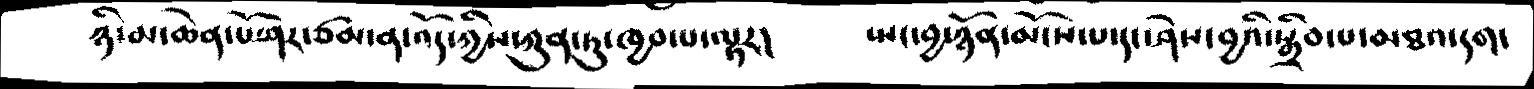ཉི་མ་ཆེན་པོ་ཤར་ཙམ་ན་འོད་ཀྱིས་ཀུན་ཏུ་ཁྱབ་པ་ལྟར།    སྤང་བྱ་ཉོན་མོངས་པ་དང་ཤེས་བྱའི་སྒྲིབ་པ་མཐའ་དག་
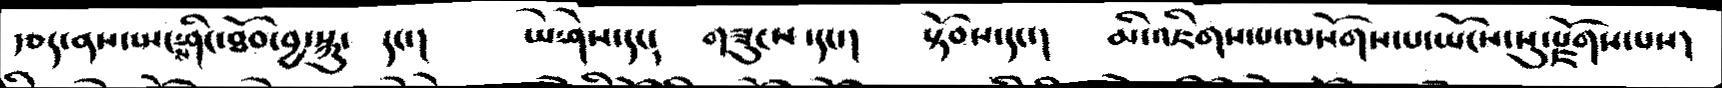རྩད་ནས་སྤངས་ཤིང་ཐོབ་བྱ་སྐུ་  དང་།   ཡེ་ཤེས་དང་   གཟུངས་དང་།    སྟོབས་དང་།    མི་འཇིགས་པ་ལསོགས་པ་ཡོངས་སུ་རྫོགས་པས།
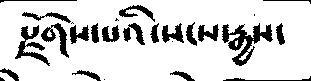རྫོགས་པའི་སངས་རྒྱས་
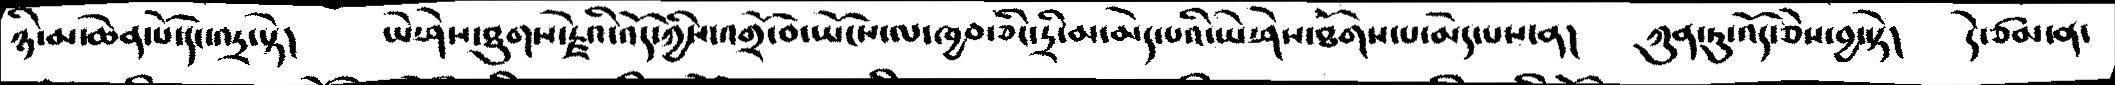ཉི་མ་ཆེན་པོ་དང་འདྲ་སྟེ།    ཡེ་ཤེས་ཐུགས་རྗེའི་འོད་ཀྱིས་འགྲོ་བ་ཡོངས་ལ་ཁྱབ་ཅིང་དྲི་མ་མེད་པའི་ཡེ་ཤེས་ཐོགས་པ་མེད་པས་ན།   ཀུན་ཏུ་འོད་ཅེས་བྱ་སྟེ།   དེ་ཙམ་ན་
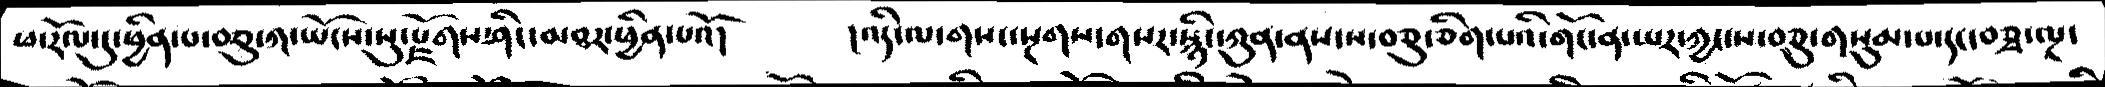ཕ་རོལ་དུ་ཕྱིན་པ་བཅུ་ཀ་ཡོངས་སུ་རྫོགས་ཤིང་མཐར་ཕྱིན་པའོ།     །འདི་ལ་གསང་སྔགས་གསར་སྙིང་ཀུན་ནས་ས་བཅུ་ཅིག་པའི་གོང་ན་ཡར་ཀྱང་ས་བཅུ་གསུམ་པ་དང་བཅྭ་ལྔ་
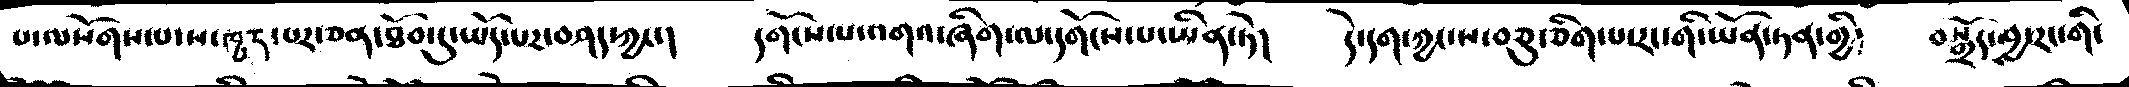པ་ལསོགས་པ་ས་ཁྱད་པར་ཅན་ཐོབ་དུ་ཡོད་པར་བཤད་ཀྱང་།    དགོངས་པ་འགའ་ཞིག་ལ་དགོངས་པ་ཡིན་ཏེ།    དེ་དག་ཀྱང་ས་བཅུ་ཅིག་པ་རང་གི་ཡོན་ཏན་གྱི་   བསྒྲོད་བྱ་རང་གི་
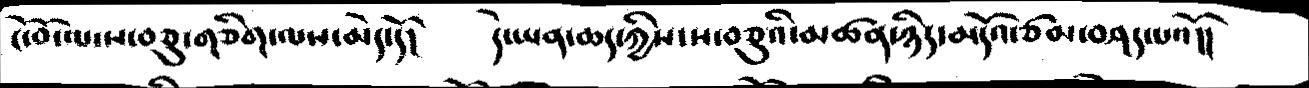ངོ་བོ་ལ་ས་བཅུ་གཅིག་ལས་མེད་དོ།    དེ་ཡན་ཆད་ཀྱིས་ས་བཅུའི་མཚན་ཉིད་མདོའ་ཙམ་བཤད་པའོ།།
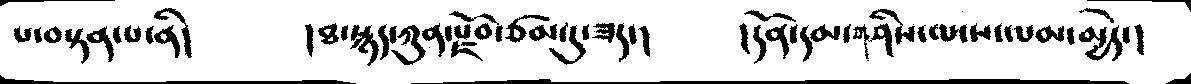པ་བསྟན་པ་ནི།    །ཐ་སྙད་ཀུན་རྫོབ་ཙམ་དུ་ཟད་།    །དོན་དམ་གཤིས་ལ་ས་ལམ་མྱེད་།
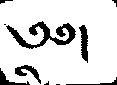༄༅།
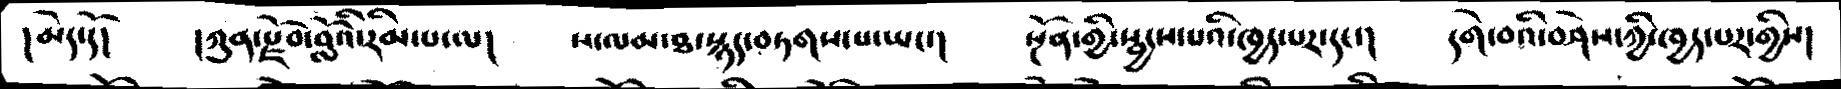།མེད་དོ།    །ཀུན་རྫོབ་བློའི་རིམ་པ་ལ།   ས་ལམ་ཐ་སྙད་བཏགས་པ་ཡང་།   སྔོན་གྱི་སྦྱངས་པའི་ཁྱད་པར་དང་།    དགེ་བའི་བཤེས་ཀྱི་ཁྱད་པར་གྱིས།
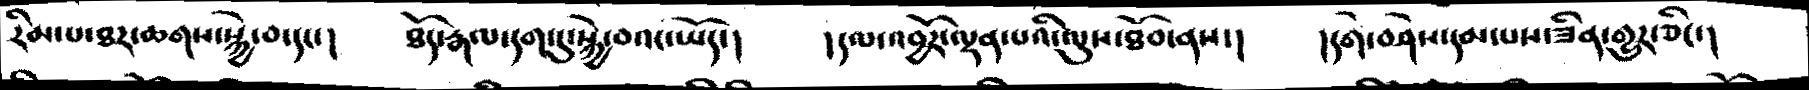རིམ་པ་ཐར་ཆགས་སྐྱེ་བ་དང་།    ཐོད་རྒལ་དག་དུ་སྐྱེ་བའང་ཡོད་།    །དལ་འབྱོར་ལྡན་པའི་ལུས་ཐོབ་ནས་།    །དགེ་བཤེས་དམ་པས་ཟིན་གྱུར་ཅིང་།
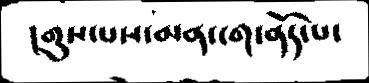།གུས་པས་མན་ངག་ནོད་པ་
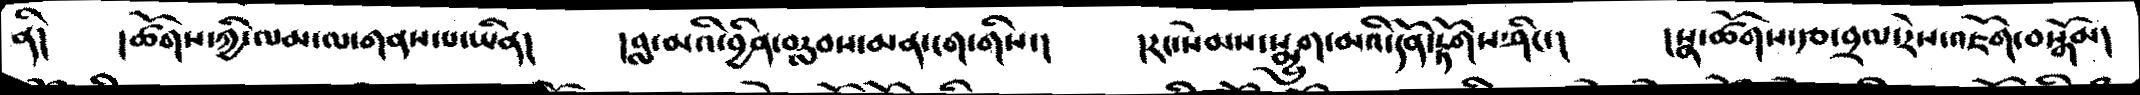ནི།   །ཚོགས་ཀྱི་ལམ་ལ་གནས་པ་ཡིན།    །བླ་མའི་བྱིན་བརླབས་མན་ངག་གིས་།    །རང་སེམས་སྨྱུག་མའི་དོན་རྟོགས་ཤིང་།    །སྣ་ཚོགས་རྩ་བྲལ་རེས་འཇོག་བསྒོམ།
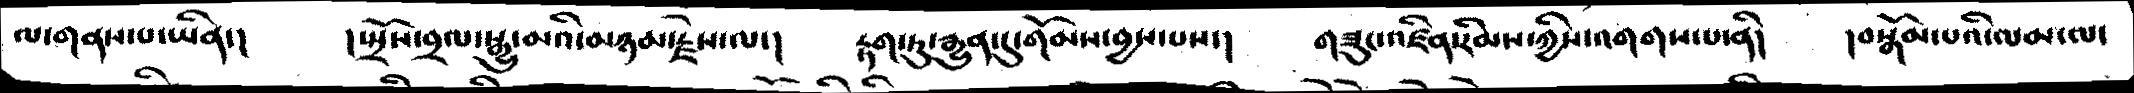ལ་གནས་པ་ཡིན་།  །སྤྲོས་བྲལ་སྒྱུ་མའི་མཉམ་རྗེས་ལ་།    རྟག་ཏུ་རྒྱུན་དུ་གོམས་བྱས་པས་།    གཟུང་འཛིན་རིམས་ཀྱིས་འགགས་པ་ནི།   །བསྒོམ་པའི་ལམ་ལ་
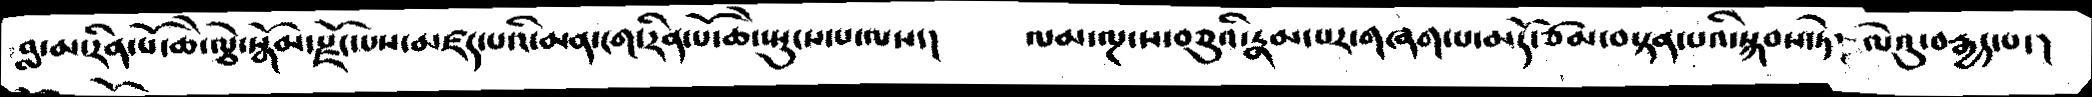བླ་མ་རིན་པོ་ཆེ་ལྕེ་སྒོམ་རྫོང་པས་མཛད་པའི་མན་ངག་རིན་པོ་ཆེ་སྤུངས་པ་ལས་།    ལམ་ལྔ་ས་བཅུའི་རྣམ་པར་གཞག་པ་མདོ་ཙམ་བསྟན་པའི་སྐབས་ཏེ་ལེའུ་བརྒྱད་པ་།
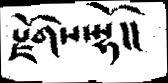རྫོགས་སྷོ།།
